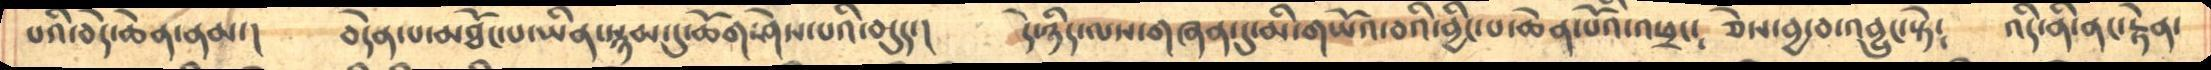པའི་བདེ་ཆེན་ནམ་།     བདེན་པ་མཐོང་པ་ཡིན་སྙམ་དུ་ཆོག་ཤེས་པའི་བདུད་།    དེ་ཉིད་ལས་གཞན་དུ་མི་གཡོའ་བའི་བྱིང་པ་ཆེན་པོའི་།ཕྲང༴  ཅེས་བྱ་བ་འབྱུང་སྟེ༴   འདི་ནི་ནང་རྟེན་
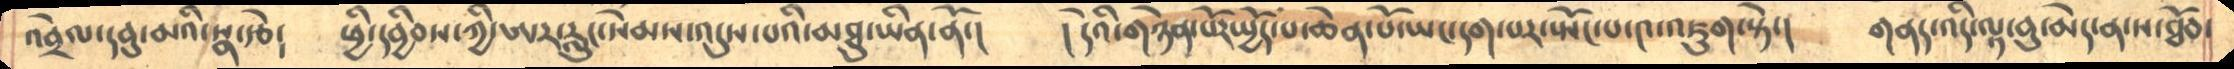འབྲེལ་དབུ་མའི་སྣ་རྩེ༴    ཕྱི་དབྱིབས་ཀྱི་ཨར་རླུང་སེམས་འདུས་པའི་མཐུ་ཡིན་ནོ་།    ། དེའི་གཉེན་པོར་སྤྱོད་པ་ཆེན་པོ་ཡང་དག་པར་སྤོང་པ་༤་འཇུག་སྟེ་།    གནད་འདི་ལྟ་བུ་མེད་ན་ས་ཐོབ་
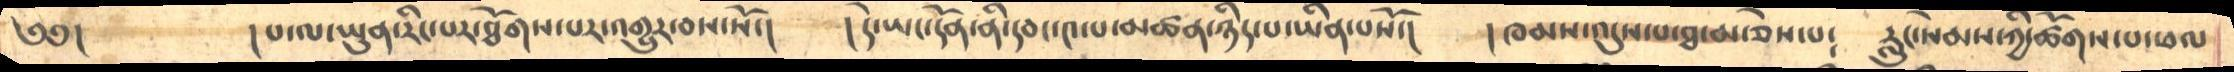༄༅།          །པ་ལ་ཡུན་རིང་པར་ཐོགས་པར་འགྱུར་བས་སོ་།      ། དེ་ཡང་དོན་ནི་དབང་༤་པ་མཚན་ཉིད་པ་ཡིན་པསོ་།    ། ཁམས་འདུས་པ་ཐ་མ་ཅེས་པ༴   རླུང་སེམས་ཀྱི་ཚོགས་པ་ཕལ
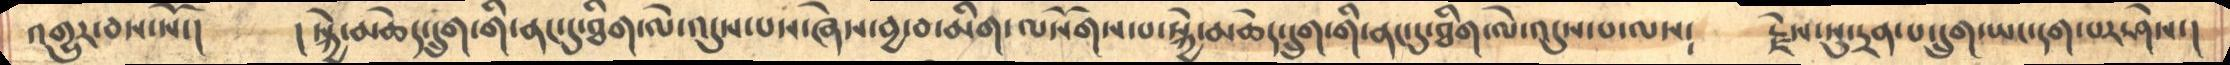འགྱུར་བས་སོ་།       ། སྐྱེ་མཆེད་དྲུག་གི་ནང་དུ་ཐིག་ལེ་འདུས་པས་ཞེས་བྱ་བ་མིག་ལསོགས་པ་སྐྱེ་མཆེད་དྲུག་གི་ནང་དུ་ཐིག་ལེ་འདུས་པ་ལས༴      རྗེས་སུ་དྲན་པ་དྲུག་ཡང་དག་པར་ཤེས་།
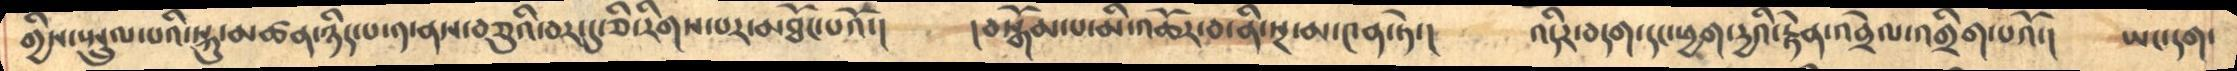གྱིས་སྤྲུལ་པའི་སྐུ་མཚན་ཉིད་པ་༡་ནས་བཅུའི་བར་དུ་ཅི་རིགས་པར་མཐོང་པའོ་།    །བསྒོམ་པ་མི་འཆོར་བ་ནི་སྔ་མ་༤ན་ཏེ་།    འདིར་བདག་དང་ཕྱག་དྱའི་རྟེན་འབྲེལ་འགྲིག་པའོ་།   ཡང་དག་
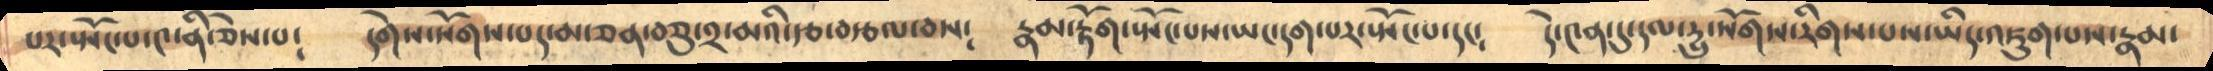པར་སྤོང་པ་༤་ནི་ཅེས་པ༴     དགེས་སོགས་པད་མ་ཅན་བཅུ་༢་མའི་རྩ་བརྩལ་བས༴    རྣམ་རྟོག་སྤོང་པས་ཡང་དག་པར་སྤོང་པ་དང༴   དེ་༤ན་དུ་དལ་དྱུ་སོགས་རིགས་པས་ཡིད་འཇུག་པས་རྣམ་
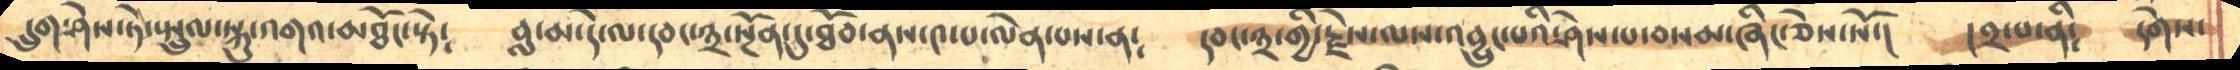དྲུག་ཤེས་ཏེ་སྤྲུལ་སྐུ་འགའ་མཐོང་སྟེ༴    བླ་མ་དེ་ལ་དབང་༣་སྔོན་དུ་ཐོབ་ནས་༤་པ་ལེན་པས་ན༴    དབང་༣་གྱི་རྗེས་ལས་འབྱུང་པའི་ཤེས་པ་བསམ་ཞིང་ཅེས་སོ་།   །༢་པ་ནི༴   དགེས་
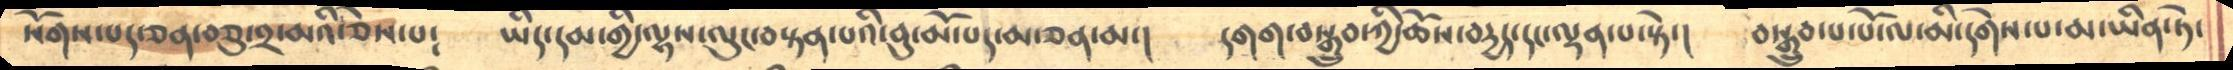སོགས་པད་ཅན་བཅུ་༢་མའི་ཅེས་པ༴      ཡིད་དམ་གྱི་ལྷས་ལུང་བསྟན་པའི་བུ་མོ་པད་མ་ཅན་མ་།   དགག་བསྒྲུབ་ཀྱི་ཆོས་བདྱད་དང་ལྡན་པ་སྟེ་།    བསྒྲུབ་པ་པོ་ལ་མི་དགེས་པ་མ་ཡིན་ཏེ་
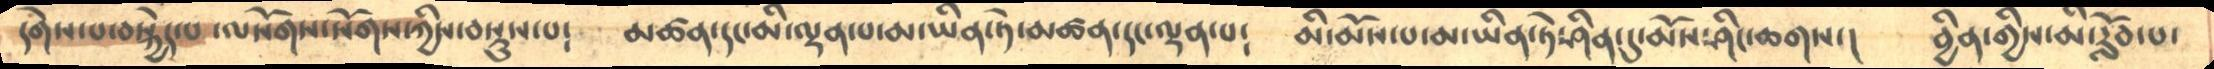དགེས་པ་བསྐྱེད་པ་ལསོགས་སོགས་ཀྱིས་བསྡུས་པ༴     མཚན་དང་མི་ལྡན་པ་མ་ཡིན་ཏེ་མཚན་དང་ལྡན་པ༴    མི་མོས་པ་མ་ཡིན་ཏེ་ཤིན་དུ་མོས་ཤིང་ཆགས་།   བྱིན་གྱིས་མི་རློབ་པ་
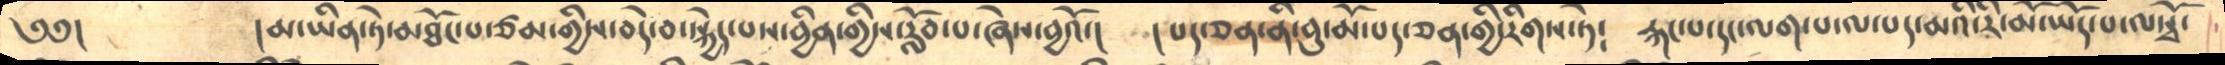༄༅།       །མ་ཡིན་ཏེ་མཐོང་པ་ཙམ་གྱིས་བདེ་བ་སྐྱེད་པས་བྱིན་གྱིས་རློབ་པ་ཞེས་བྱའོ་།   །པད་ཅན་ནི་བུ་མོ་པད་ཅན་གྱི་རིགས་ཏེ༴   རྐང་པ་དང་ལག་པ་ལ་པད་མའི་རི་མོ་ཡོད་པ་ལསྭོ་
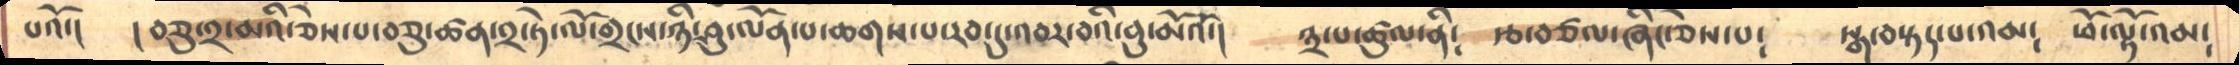པའོ་།    །བཅུ་༢་མའི་ཅེས་པ་བཅུ་ཚན་༢་ཏེ་ལོ་གྲངས་ཉི་ཤུ་ལོན་པ་ཆགས་པ་རབ་དུ་འབར་བའི་བུ་མོའོ་།     ༣་པ་ཚུལ་ནི༴   རྩ་བཙལ་ཞིང་ཅེས་པ༴    སྒ་བསྟད་པ་འམ༴  ཕོ་ལྷོ་འམ༴
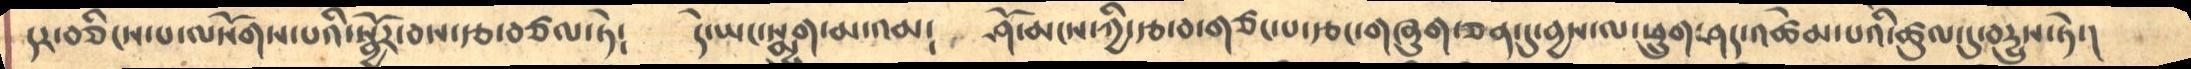དར་བཅིངས་པ་ལསོགས་པའི་སྦྱོར་བས་རྩ་བཙལ་ཏེ༴    དེ་ཡང་སྨྱུག་མ་འམ༴  ཤོ་མངས་ཀྱི་རྩ་བ་གཙང་པ་རྩང་གཞུག་ཅན་དུ་བྱས་ལ་ཕྲུག་ཤད་འཚེམ་པའི་ཚུལ་དུ་བདྱུས་ཏེ་།
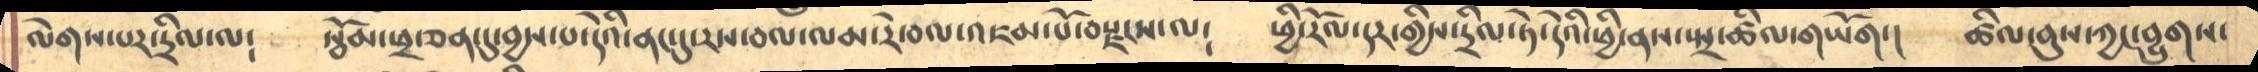ལེགས་པར་དྲིལ་ལ༴    སྦོམ་ཕྲ་ཅན་དུ་བྱས་པ་དེའི་ནང་དུ་རས་བལ་ལམ་རེ་བལ་འཇམ་པོ་བརྫངས་ལ༴    ཕྱི་རོལ་དར་གྱིས་དྲིལ་ཏེ་དེའི་ཕྱི་ནས་སྤྲ་ཚིལ་གཡོག་།    ཚིལ་ནུས་ཀྱང་བྱུགས་
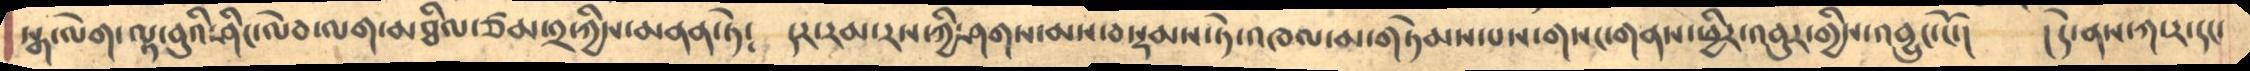སྒ་ལེག་ལྟ་བུའི་ཤིང་ལེབ་ལག་མཐིལ་ཙམ་༢་ཀྱིས་མནན་ཏེ༴   དར་རམ་རས་ཀྱི་ཤགས་མས་བསྡམས་ཏེ་འཁལ་མ་གཏེམས་པས་གསང་གནས་ཕྱིར་འབུར་གྱིས་འབྱུང་ངོ་།    །དེ་ནས་ཀ་ར་དང་
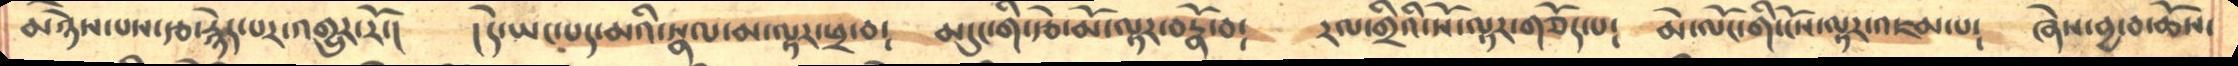མཉེས་པས་རྩ་རྙེད་པར་འགྱུར་རོ་།    །དེ་ཡང་པད་མའི་སྣལ་མལྟར་ཕྲ་བ༴    མདུང་གི་རྩེ་མོ་ལྟར་བརྣོ་བ༴    རལ་གྲིའི་སོ་ལྟར་གཅོད་པ༴    མེ་ལོང་གི་ངོས་ལྟར་འཇམ་པ༴    ཞེས་བྱ་བ་ཆོས་
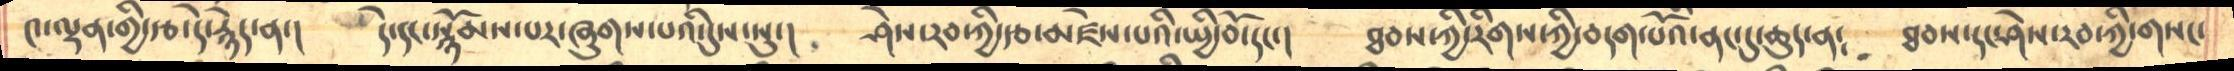༤་ལྡན་གྱི་རྩ་དེ་རྙེད་ན་།    དེ་དང་སྙོམས་པར་ཞུགས་པའི་དུས་སུ་།    ཤེས་རབ་ཀྱི་རྩ་མཛེས་པའི་སྤྱི་བོ་དང་།    ཐབས་ཀྱི་རིགས་ཀྱི་བདག་པོའི་ནང་དུ་ཆུད་ན༴    ཐབས་དང་ཤེས་རབ་ཀྱི་གསང་
